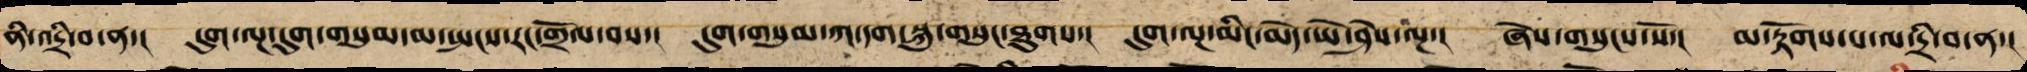ནི་འདྲི་བ་ན་། དུག་ལྔ་དུག་གསུམ་མ་སྤངས་རང་གྲོལ་བས་། དུག་གསུམ་ཀ་དག་སྐུ་གསུང་ཐུགས་། དུག་ལྔ་མིང་མེད་ཡེ་ཤེས་ལྔ་། ཞེས་གསུངས་སོ། མ་རྟོགས་པ་ལ་དྲི་བ་ན་།
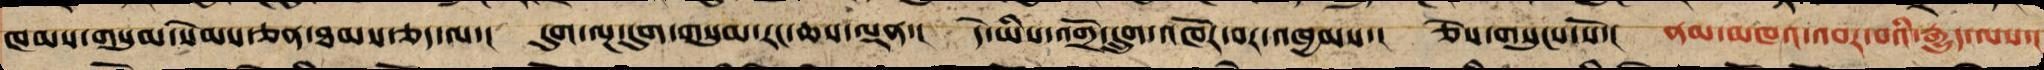ཁམས་གསུམ་སེམས་ཅན་ཐམས་ཅད་ལ་། དུག་ལྔ་དུག་གསུམ་རང་ཆས་ལྡན་། དེ་ཡིས་འགྲོ་དྲུག་འཁོར་བར་འཁྱམས་། ཅེས་གསུངས་སོ་། ནམ་མཁའ་འབར་བའི་རྒྱུད་ལས་།
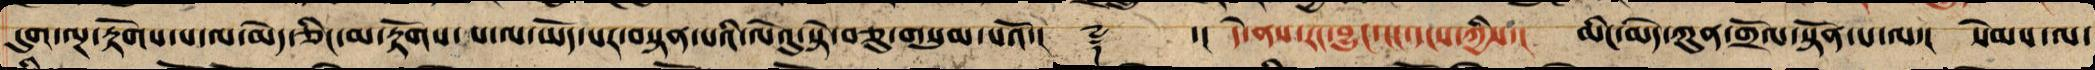དུག་ལྔ་རྟོགས་པ་ལ་མེད་ཅིང་མ་རྟོགས་པ་ལ་ཡོད་པར་བསྟན་པའི་ལེའུ་སྟེ་བཅུ་གསུམ་པའོ་།། ༈ ་།། དེ་ནས་རང་བྱུང་ངང་དངས་ཀྱིས། མིང་མེད་ཀུན་གྲོལ་སྟོན་པ་ལ་། སེམས་ལ་
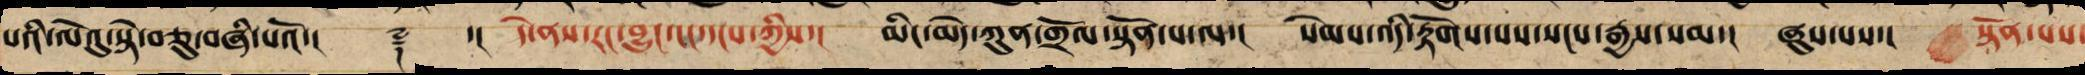པའི་ལེའུ་སྟེ་བཅུ་བཞི་པའོ་།། ༈ ་།། དེ་ནས་རང་བྱུང་ངང་དངས་ཀྱིས་། མིང་མེད་ཀུན་གྲོལ་སྟོན་པ་ལ་། སེམས་འདི་རྟོག་པས་སངས་རྒྱས་སམ་། ཞུས་པས་། སྟོན་པས་
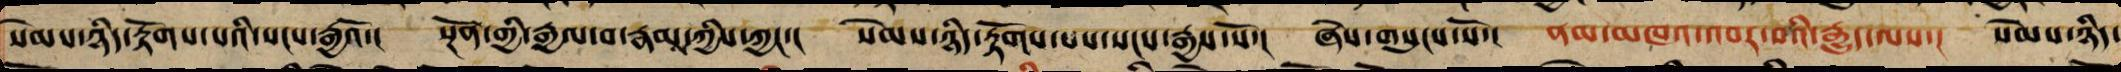སེམས་ཉིད་རྟོགས་པས་སངས་རྒྱའོ་། སྔོན་གྱི་རྒྱལ་བ་རྣམས་ཀྱིས་ཀྱང་་། སེམས་ཉིད་རྟོགས་པས་སངས་རྒྱས་སོ་། ཞེས་གསུངས་སོ་། ནམ་མཁའ་འབར་བའི་རྒྱུད་ལས་། སེམས་ཉིད་
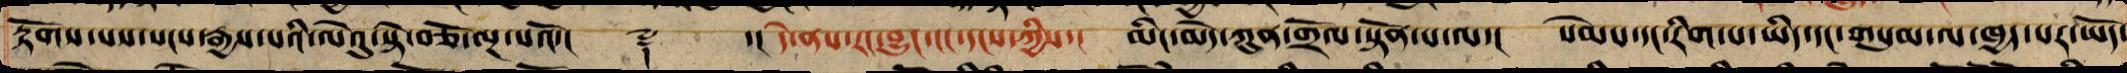རྟོགས་པས་སངས་རྒྱས་པའི་ལེའུ་སྟེ་བཅོ་ལྔ་པའོ་།། ༈ ་།། དེ་ནས་རང་བྱུང་ངང་དངས་ཀྱིས་། མིང་མེད་ཀུན་གྲོལ་སྟོན་པ་ལ་། སེམས་དང་རིག་པ་ཡིད་དང་གསུམ་ལ་ཁྱད་པར་ཡོད་་
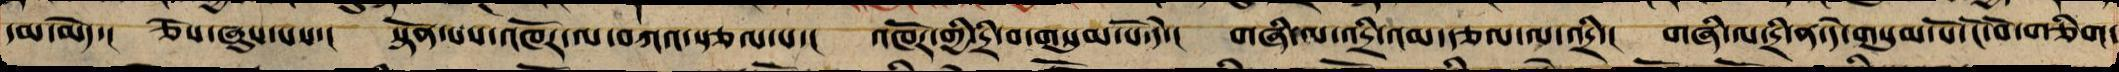དམ་མེད་། ཅེས་ཞུས་པས་། སྟོན་པས་འཁོར་ལ་བཀའ་སྩལ་པ་། འཁོར་གྱི་དྲི་བ་གསུམ་པོ་དེ་། གཞི་ལ་འདྲི་འམ་རྩལ་ལ་འདྲི་། གཞི་ལ་འདྲི་ན་དེ་གསུམ་ངོ་བོ་གཅིག་
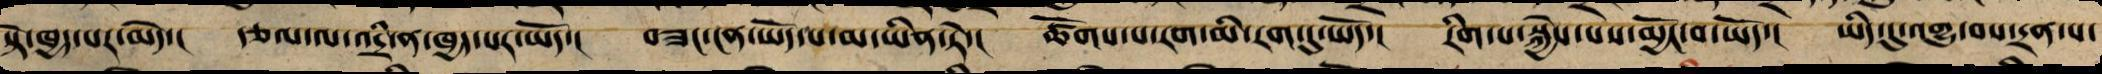སྟེ་ཁྱད་པར་མེད་། རྩལ་ལ་འདྲི་ན་ཁྱད་པར་ཡོད་། བཟང་ངན་ཡོད་པ་མ་ཡིན་ཏེ་། ཚོགས་པ་རགས་མི་རགས་སུ་ཡོད་། རིག་པ་སྐྱེ་མེད་མྱོང་བ་ཡོད་། ཡིད་དུ་འགྱུ་བས་དྲན་པ་
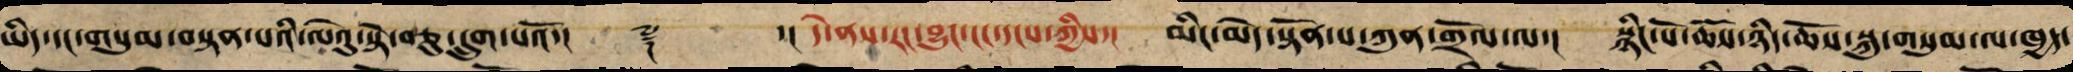ཡིད་དང་གསུམ་བསྟན་པའི་ལེའུ་སྟེ་བཅུ་དྲུག་པའོ་།། ༈ ་།། དེ་ནས་རང་བྱུང་ངང་དངས་ཀྱིས་། མིང་མེད་སྟོན་པ་ཀུན་གྲོལ་ལ་། སྙིང་པོ་ཆོས་ཉིད་ཆོས་སྐུ་གསུམ་ལ་ཁྱད་
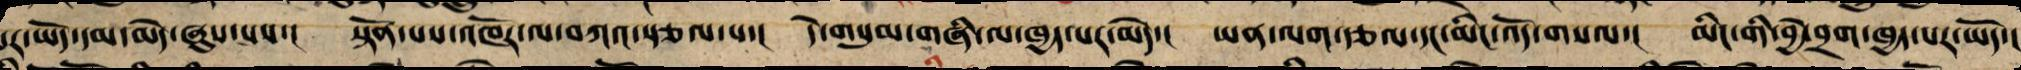པར་ཡོད་དམ་མེད་ཞུས་པས་། སྟོན་པས་འཁོར་ལ་བཀའ་སྩལ་པ་། དེ་གསུམ་གཞི་ལ་ཁྱད་པར་མེད་། ཡན་ལག་རྩལ་དང་མིང་འདོ་གསལ་། མིང་གི་བྱེ་བྲག་ཁྱད་པར་ཡོད་།
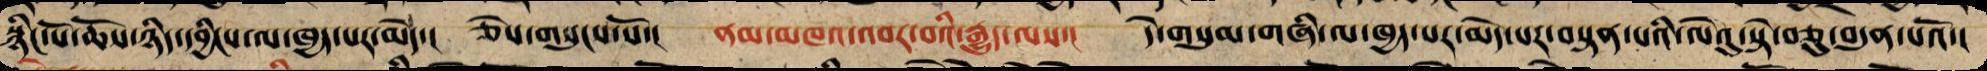སྙིང་པོ་ཆོས་ཉིད་དབྱིངས་ལ་ཁྱད་པར་མེད་། ཅེས་གསུངས་སོ་། ནམ་མཁའ་འབར་བའི་རྒྱུད་ལས་། དེ་གསུམ་གཞི་ལ་ཁྱད་པར་མེད་པར་བསྟན་པའི་ལེའུ་སྟེ་བཅུ་བདུན་པའོ་།
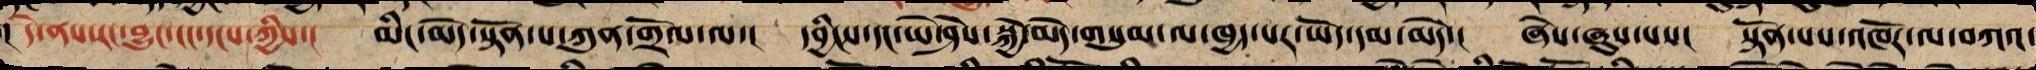།། དེ་ནས་རང་བྱུང་ངང་དངས་ཀྱིས་། མིང་མེད་སྟོན་པ་ཀུན་གྲོལ་ལ་། དབྱིངས་དང་ཡེ་ཤེས་སྐྱེ་མེད་གསུམ་ལ་ཁྱད་པར་ཡོད་དམ་མེད་། ཞེས་ཞུས་པས་། སྟོན་པས་འཁོར་ལ་བཀའ་
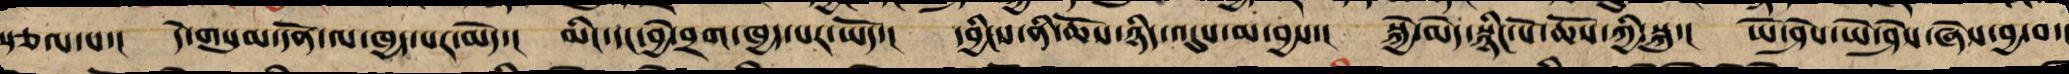སྩལ་པ་། དེ་གསུམ་དོན་ལ་ཁྱད་པར་མེད་། མིང་དང་བྱེ་བྲག་ཁྱད་པར་ཡོད་། དབྱིངས་ནི་ཆོས་ཉིད་འདུས་མ་བྱས་། སྐྱེ་མེད་སྙིང་པོ་ཆོས་ཀྱི་སྐུ་། ཡེ་ཤེས་ཡེ་ཤེས་ཞེས་བྱ་བ་།
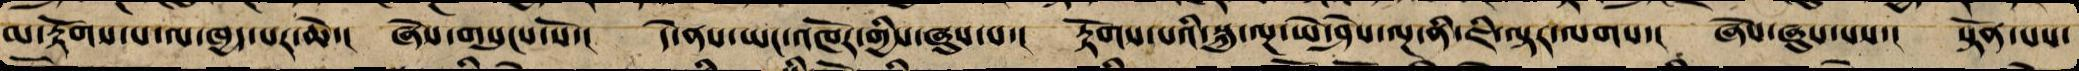མ་རྟོགས་པ་ལ་ཁྱད་པར་ཆེ་། ཞེས་གསུངས་སོ་། དེ་ནས་ཡང་འཁོར་གྱིས་ཞུས་པ་། རྟོགས་པའི་སྐུ་ལྔ་ཡེ་ཤེས་ལྔ་ནི་ཇི་ལྟར་ལགས་། ཞེས་ཞུས་པས། སྟོན་པས་
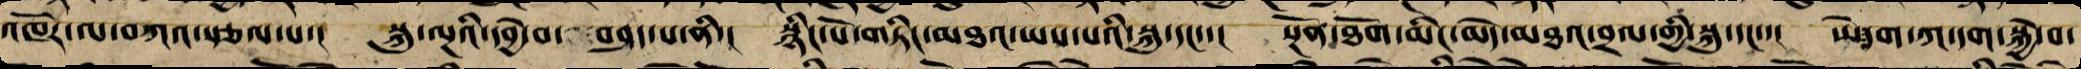འཁོར་ལ་བཀའ་སྩལ་པ་། སྐུ་ལྔའི་དབྱེ་བ་བཤད་པ་ནི་། སྙིང་པོ་གཏིང་མཐའ་ཡས་པའི་སྐུ་དང་་། སྔོན་ཐོག་མིང་མེད་མཐའ་བྲལ་གྱི་སྐུ་དང་་། ཡེ་དག་ཀ་དག་སྐྱེ་བ་
